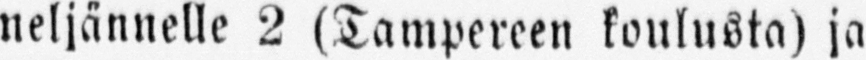neljännelle 2 (Tampereen koulusta) ja
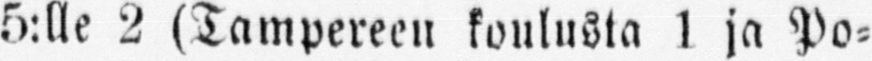5:lle 2 (Tampereen koulusta l ja Po-
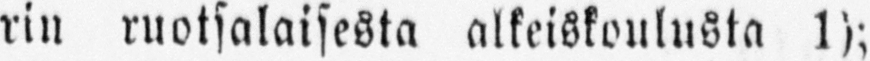rin ruotsalaisesta alkeiskoulusta 1);
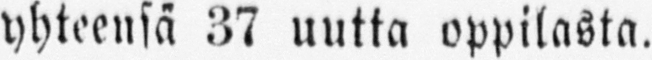yhteensä 37 uutta oppilasta.
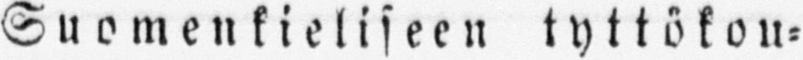Suomenkieliseen tyttököu-
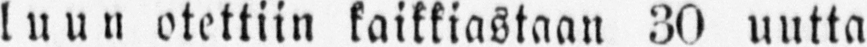luun otettiin kaikkiastaan 30 uutta
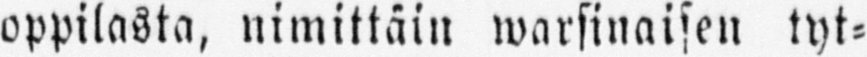oppilasta, nimittäin warsinaisen tyt-
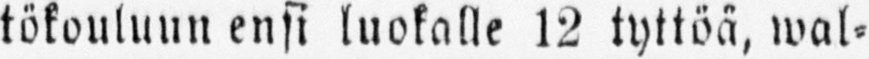tökouluun ensi luokalle 12 tyttöä, wal-
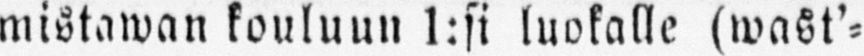mistaman kouluun l:si luokalle (wast'-
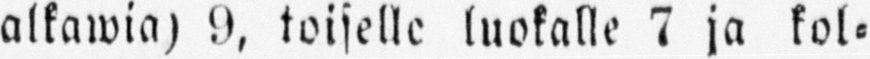alkawia) 9, toiselle luokalle 7 ja kol-
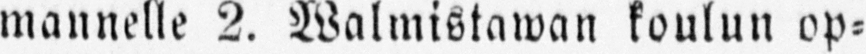mannelle 2. Walmistawan koulun op-
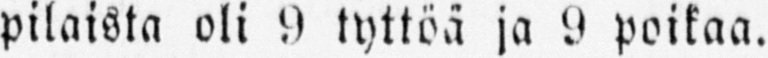pilaista oli 9 tyttöä ja 9 poikaa.
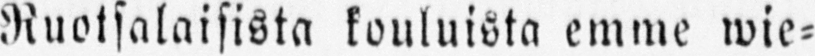Ruotsalaisista kouluista emme wie-
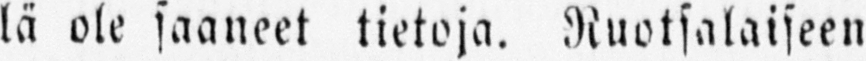lä ole saaneet tietoja. Ruotsalaiseen
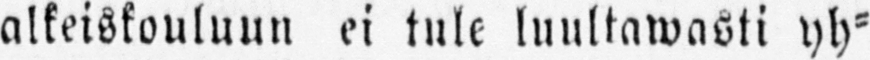alkeiskouluun ei tule luultawasti yh-
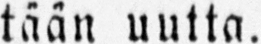tään uutta.
